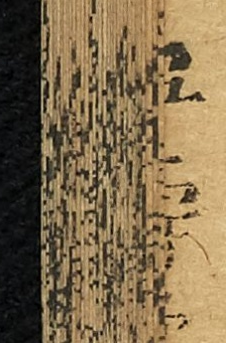寧壽堂
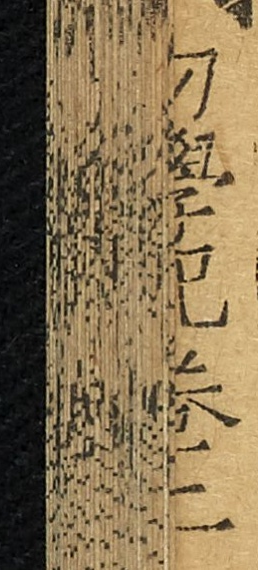初學記卷二
